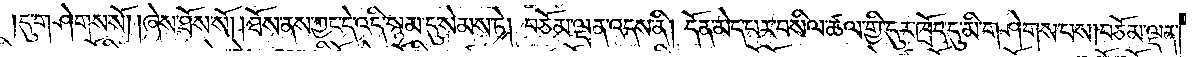དུ་གཤེགས་སོ། །ཞེས་ཐོས་སོ། །ཐོས་ནས་ཀྱང་དེ་འདི་སྙམ་དུ་སེམས་ཏེ། བཅོམ་ལྡན་འདས་ནི། དོན་མེད་པར་བསིལ་ཚལ་གྱི་དུར་ཁྲོད་དུ་མི་གཤེགས་པས། བཅོམ་ལྡན་
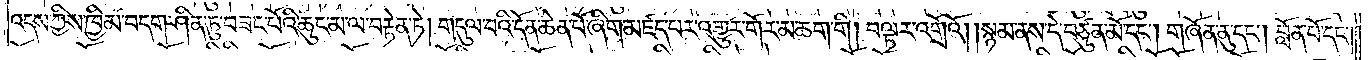འདས་ཀྱིས་ཁྱིམ་བདག་ཤིན་ཏུ་བཟང་པོའི་ཆུང་མ་ལ་བརྟེན་ཏེ། གདུལ་བའི་དོན་ཆེན་པོ་ཞིག་མཛད་པར་འགྱུར་གོར་མ་ཆག་གི། བལྟར་འགྲོའོ། །སྙམ་ནས་དེ་བཙུན་མོ་དང༌། གཞོན་ནུ་དང༌། བློན་པོ་དང༌།
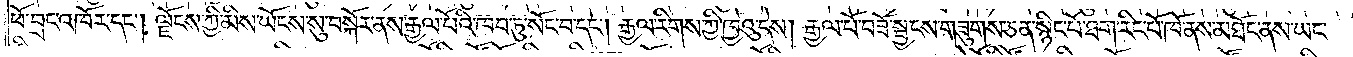ཕོ་བྲང་འཁོར་དང༌། ལྗོངས་ཀྱི་མིས་ཡོངས་སུ་བསྐོར་ནས་རྒྱལ་པོའི་ཁབ་ཏུ་སོང་བ་དང༌། རྒྱལ་རིགས་ཀྱི་ཁྱེའུ་དེས། རྒྱལ་པོ་བཟོ་སྦྱངས་གཟུགས་ཅན་སྙིང་པོ་ཐག་རིང་པོ་ཁོ་ནས་མཐོང་ནས་ཡང་
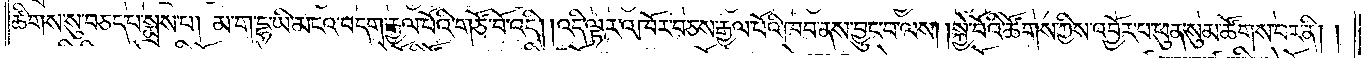ཚིགས་སུ་བཅད་པ་སྨྲས་པ། མ་ག་དྷ་ཡི་མངའ་བདག་རྒྱལ་པོའི་གཙོ་བོ་འདི། །འདི་ལྟར་འཁོར་བཅས་རྒྱལ་པོའི་ཁབ་ནས་བྱུང་བ་ལས། སྐྱེ་བོའི་ཚོགས་ཀྱིས་འབྱོར་བ་ཕུན་སུམ་ཚོགས་པར་ནི། །
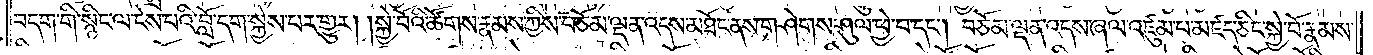བདག་གི་སྙིང་ལ་ངེས་པའི་བློ་དག་སྐྱེས་པར་གྱུར། །སྐྱེ་བོའི་ཚོགས་རྣམས་ཀྱིས་བཅོམ་ལྡན་འདས་མཐོང་ནས་གཤེགས་ཤུལ་ཕྱེ་བ་དང༌། བཅོམ་ལྡན་འདས་ཞལ་འཛུམ་པ་མཛད་ཅིང་སྐྱེ་བོ་རྣམས་
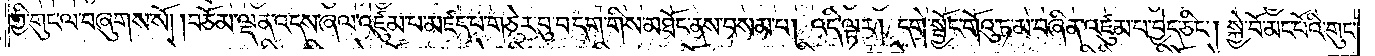ཀྱི་གུང་ལ་བཞུགས་སོ། །བཅོམ་ལྡན་འདས་ཞལ་འཛུམ་པ་མཛད་པ་གཅེར་བུ་བདག་གིས་མཐོང་ནས་བསམ་པ། འདི་ལྟར། དགེ་སྦྱོང་གོའུ་ཏ་མ་བཞིན་འཛུམ་པ་བྱེད་ཅིང༌། སྐྱེ་བོ་མང་པོའི་གུང་
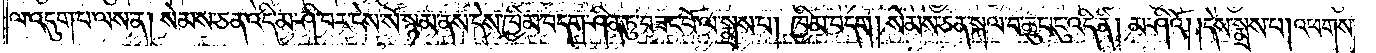ལ་འདུག་པ་ལས་ན། སེམས་ཅན་འདི་མ་ཤི་བར་ངེས་སོ་སྙམ་ནས་དེས་ཁྱིམ་བདག་ཤིན་ཏུ་བཟང་པོ་ལ་སྨྲས། ཁྱིམ་བདག། སེམས་ཅན་སྐལ་བ་ཆུང་ངུ་འདི་ནི། མ་ཤིའོ། །དེས་སྨྲས་པ། འཕགས་
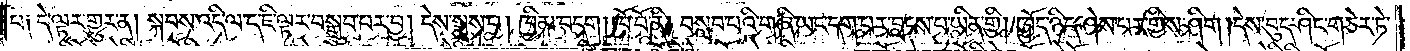པ། དེ་ལྟར་གྱུར་ན། སྐབས་འདི་ལ་ད་ཇི་ལྟར་བསྒྲུབ་པར་བྱ། དེས་སྨྲས་པ། ཁྱིམ་བདག། ཁོ་བོ་ནི། བསླབ་པའི་གཞི་ཡང་དག་པར་བླངས་པ་ཡིན་གྱི། ཁྱོད་ཉིད་ཤེས་པར་གྱིས་ཤིག །དེས་བུད་ཤིང་གཅེར་ཏེ་
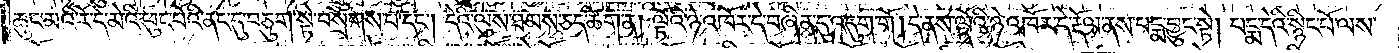ཆུང་མའི་རོ་དེ་མེའི་ཕུང་པོའི་ནང་དུ་བཅུག་སྟེ་བསྲེགས་པ་དང༌། དེའི་ལུས་ཐམས་ཅད་ཚིག་ན། ལྟོའི་ཉེ་འཁོར་དེ་བཞིན་དུ་འདུག་གོ །དེ་ནས་ལྟོའི་ཉེ་འཁོར་དེ་རྡོལ་ནས་པདྨ་བྱུང་སྟེ། པདྨ་དེའི་སྙིང་པོ་ལས་
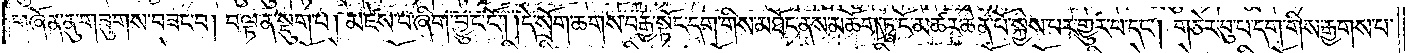གཞོན་ནུ་གཟུགས་བཟང་བ། བལྟ་ན་སྡུག་པ། མཛེས་པ་ཞིག་བྱུང་ངོ༌། །དེ་སྲོག་ཆགས་བརྒྱ་སྟོང་དག་གིས་མཐོང་ནས་མཆོག་ཏུ་ངོ་མཚར་ཆེན་པོ་སྐྱེས་པར་གྱུར་པ་དང༌། གཅེར་བུ་པ་དག་གིས་རྒྱགས་པ་
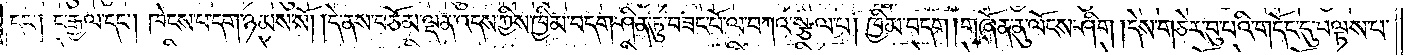དང་༑ ང་རྒྱལ་དང༌། ཁེངས་པ་དག་ཉམས་སོ། །དེ་ནས་བཅོམ་ལྡན་འདས་ཀྱིས་ཁྱིམ་བདག་ཤིན་ཏུ་བཟང་པོ་ལ་བཀའ་སྩལ་པ། ཁྱིམ་བདག །གཞོན་ནུ་ལོངས་ཤིག །དེས་གཅེར་བུ་པའི་གདོན་དུ་བལྟས་པ་
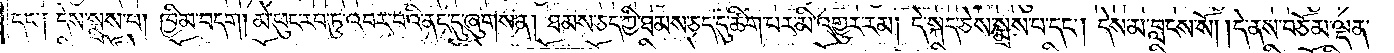དང་༑ དེས་སྨྲས་པ། ཁྱིམ་བདག། མེ་ཕུང་རབ་ཏུ་འབར་བའི་ནང་དུ་ཞུགས་ན། ཐམས་ཅད་ཀྱི་ཐམས་ཅད་དུ་ཚིག་པར་མི་འགྱུར་རམ། དེ་སྐད་ཅེས་སྨྲས་པ་དང༌། དེས་མ་བླངས་སོ། །དེ་ནས་བཅོམ་ལྡན་
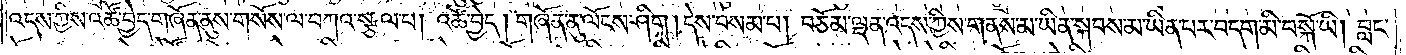འདས་ཀྱིས་འཚོ་བྱེད་གཞོན་ནུས་གསོས་ལ་བཀའ་སྩལ་པ། འཚོ་བྱེད། གཞོན་ནུ་ལོངས་ཤིག །དེས་བསམ་པ། བཅོམ་ལྡན་འདས་ཀྱིས་གནས་མ་ཡིན་སྐབས་མ་ཡིན་པར་བདག་མི་བསྐོ་ཡི། བླང་
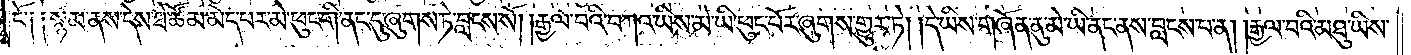ངོ༌། །སྙམ་ནས་དེས་ཐེ་ཚོམ་མེད་པར་མེ་ཕུང་གི་ནང་དུ་ཞུགས་ཏེ་བླངས་སོ། །རྒྱལ་བའི་བཀའ་ཡིས་མེ་ཡི་ཕུང་པོར་ཞུགས་གྱུར་ཏེ། །དེ་ཡིས་གཞོན་ནུ་མེ་ཡི་ནང་ནས་བླངས་པ། །རྒྱལ་བའི་མཐུ་ཡིས་
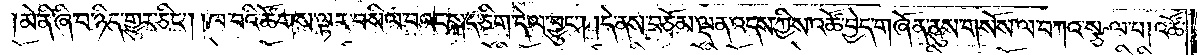མེ་ནི་ཞི་བ་ཉིད་གྱུར་ཅིང༌། །ཁ་བའི་ཚོགས་ལྟར་བསིལ་བའང་སྐད་ཅིག་དེ་ལ་བྱུང༌། །དེ་ནས་བཅོམ་ལྡན་འདས་ཀྱིས་འཚོ་བྱེད་གཞོན་ནུས་གསོས་ལ་བཀའ་སྩལ་པ། འཚོ་
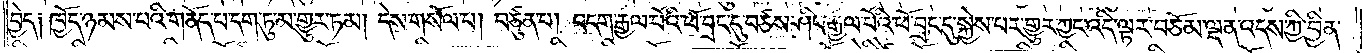བྱེད། ཁྱོད་ཉམས་པའི་གནོད་པ་དག་ཏུ་མ་གྱུར་ཏམ། དེས་གསོལ་པ། བཙུན་པ། བདག་རྒྱལ་པོའི་ཕོ་བྲང་དུ་བཙས་ཤིང་རྒྱལ་པོའི་ཕོ་བྲང་དུ་སྐྱེས་པར་གྱུར་ཀྱང་འདི་ལྟར་བཅོམ་ལྡན་འདས་ཀྱི་བྱིན་
